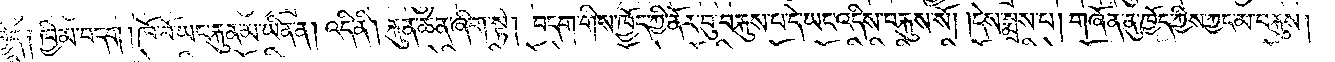བྱེད༑ ཁྱིམ་བདག །ཁོ་བོ་ཡང་རྐུན་མ་ཡིན་ན། འདི་ནི། རྐུན་ཆེན་ཞིག་སྟེ། བདག་གིས་ཁྱོད་ཀྱི་ནོར་བུ་བརྐུས་པ་དེ་ཡང་འདིས་བརྐུས་སོ། །དེས་སྨྲས་པ། གཞོན་ནུ་ཁྱོད་ཀྱིས་ཀྱང་མ་བརྐུས།
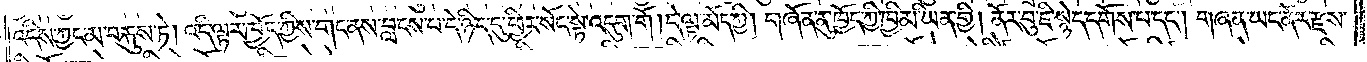འདིས་ཀྱང་མ་བརྐུས་ཏེ། འདི་ལྟར་ཁྱོད་ཀྱིས་གང་ནས་བླངས་པ་དེ་ཉིད་དུ་ཕྱིར་སོང་སྟེ་འདུག་གོ །དེ་ལྟ་མོད་ཀྱི། གཞོན་ནུ་ཁྱོད་ཀྱི་ཁྱིམ་ཡིན་གྱི། ནོར་བུ་ཇེ་སྙེད་དགོས་པ་དང༌། གཞན་ཡང་ནོར་རྫས་
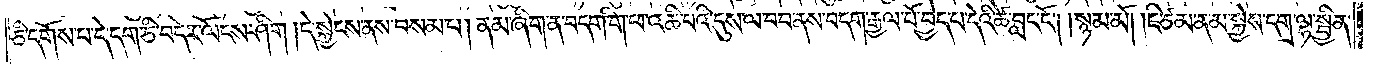ཅི་དགོས་པ་དེ་དག་ཅི་བདེར་ལོངས་ཤིག །དེ་སྐྱེངས་ནས་བསམ་པ། ནམ་ཞིག་ན་བདག་གི་ཕ་འཆི་བའི་དུས་ལ་བབ་ནས་བདག་རྒྱལ་པོ་བྱེད་པ་དེའི་ཚེ་བླང་ངོ༌། །སྙམ་མོ། །ཇི་ཙམ་ན་མ་སྐྱེས་དགྲ་ལྷ་སྦྱིན་
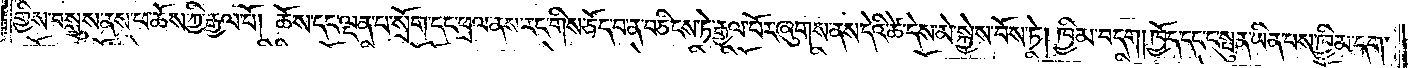གྱིས་བསླུས་ནས་ཕ་ཆོས་ཀྱི་རྒྱལ་པོ། ཆོས་དང་ལྡན་པ་སྲོག་དང་ཕྲལ་ནས་རང་གིས་ཅོད་བ་ན་བཅིངས་ཏེ་རྒྱལ་པོར་ཞུགས་ནས་དེའི་ཚེ་དེས་མེ་སྐྱེས་བོས་ཏེ། ཁྱིམ་བདག། ཁྱོད་དང་ང་སྤུན་ཡིན་པས་ཁྱིམ་དག་
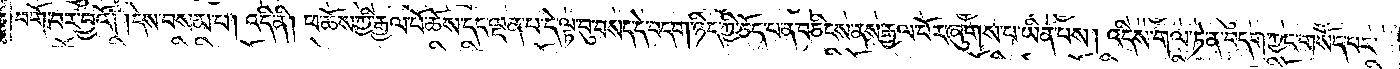བགོ་བར་བྱའོ། །དེས་བསམ་པ། འདི་ནི། ཕ་ཆོས་ཀྱི་རྒྱལ་པོ་ཆོས་དང་ལྡན་པ་དེ་ལྟ་བུ་བསད་དེ་བདག་ཉིད་ཀྱི་ཅོད་པ་ན་བཅིངས་ནས་རྒྱལ་པོར་ཞུགས་པ་ཡིན་པས། འདིས་གལ་ཏེ་ན་བདག་ཀྱང་གསོད་པར་
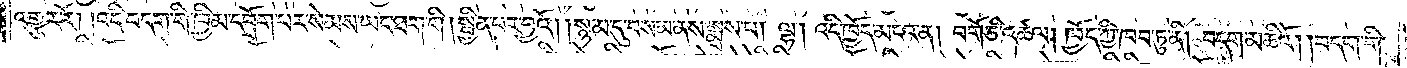འགྱུར་རོ། །འདི་བདག་གི་ཁྱིམ་དབྲོག་པར་སེམས་ཡང་ཐག་གི། སྦྱིན་པར་བྱའོ། །སྙམ་དུ་བསམ་ནས་སྨྲས་པ། ལྷ། འདི་ཁྱོད་མངའ་ན། བགོ་ཅི་འཚལ། ཁྱོད་ཀྱི་ཁབ་ཏུ་ནི། བདག་མཆིའོ། །བདག་གི་
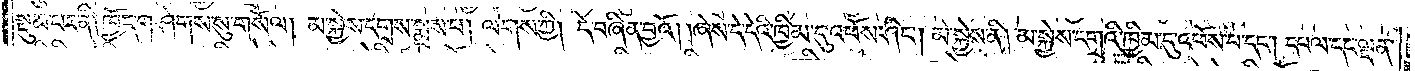སྡུམ་པར་ནི། ཁྱོད་གཤེགས་སུ་གསོལ། མ་སྐྱེས་དགྲས་སྨྲས་པ། ལེགས་ཀྱི། དེ་བཞིན་བྱའོ། །ཞེས་དེ་དེའི་ཁྱིམ་དུ་འཕོས་ཤིང༌། མེ་སྐྱེས་ནི། མ་སྐྱེས་དགྲའི་ཁྱིམ་དུ་འཕོས་པ་དང༌། དཔལ་དང་ལྡན་
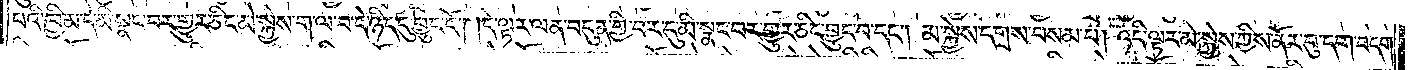པའི་ཁྱིམ་དེ་མི་སྣང་བར་གྱུར་ཅིང་མེ་སྐྱེས་ག་ལ་བ་དེ་ཉིད་དུ་བྱུང་ངོ༌། །དེ་ལྟར་ལན་བདུན་གྱི་བར་དུ་མི་སྣང་བར་གྱུར་ཅིང་བྱུང་བ་དང༌། མ་སྐྱེས་དགྲས་བསམ་པ། འདི་ལྟར་མེ་སྐྱེས་ཀྱིས་ནོར་བུ་དག་བདག་
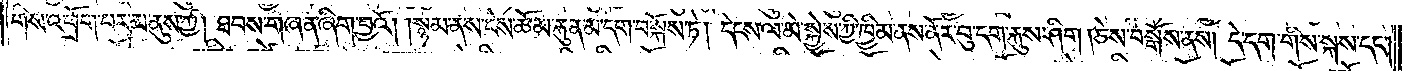གིས་འཕྲོག་པར་མ་ནུས་ཀྱི། ཐབས་གཞན་ཞིག་བྱའོ། །སྙམ་ནས་ངེས་ཆོམ་རྐུན་མ་དག་བསྐོས་ཏེ། དེངས་ལ་མེ་སྐྱེས་ཀྱི་ཁྱིམ་ནས་ནོར་བུ་དག་རྐུས་ཤིག །ཅེས་བསྒོས་ནས། དེ་དག་གིས་སྐས་དང༌།
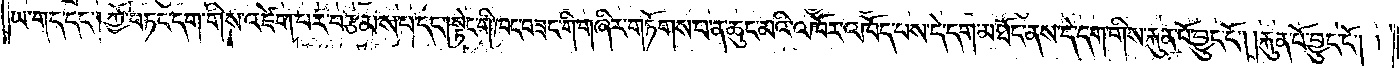ཡ་གད་དང༌། ཀྱོ་བཏང་དག་གིས་འཛེག་པར་བརྩམས་པ་དང༌། སྟེང་གི་ཁང་བཟང་གི་གཞིར་གཏོགས་པ་ན་ཆུང་མའི་འཁོར་འཁོད་པས་དེ་དག་མཐོང་ནས་དེ་དག་གིས་རྐུན་པོ་བྱུང་ངོ༌། །རྐུན་པོ་བྱུང་ངོ༌། །
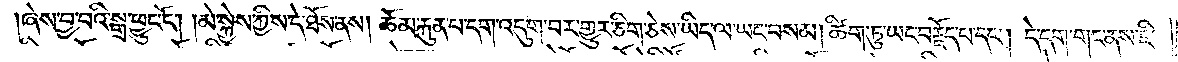ཞེས་བྱ་བའི་སྒྲ་ཕྱུང་ངོ༌། །མེ་སྐྱེས་ཀྱིས་དེ་ཐོས་ནས། ཆོམ་རྐུན་པ་དག་འདུག་པར་གྱུར་ཅིག་ཅེས་ཡིད་ལ་ཡང་བསམ། ཚིག་ཏུ་ཡང་བརྗོད་པ་དང༌། དེ་དག་གང་ནས་ཇི་
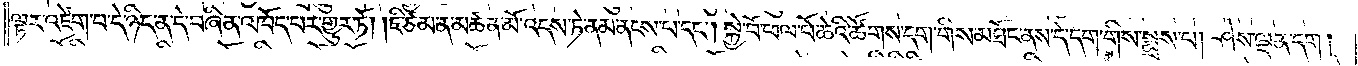ལྟར་འཛེག་པ་དེ་ཉིད་ན་དེ་བཞིན་འཁོད་པར་གྱུར་ཏོ། །ཇི་ཙམ་ན་མཚན་མོ་འདས་ཏེ་ནམ་ནངས་པ་དང༌། སྐྱེ་བོ་ཕལ་པོ་ཆེའི་ཚོགས་དག་གིས་མཐོང་ནས་དེ་དག་གིས་སྨྲས་པ། ཤེས་ལྡན་དག །
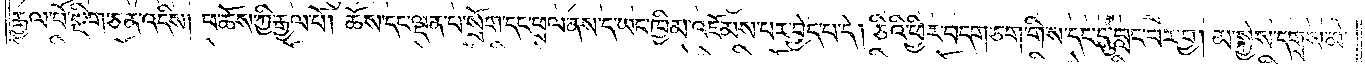རྒྱལ་པོ་སྡིག་ཅན་འདིས། ཕ་ཆོས་ཀྱི་རྒྱལ་པོ། ཆོས་དང་ལྡན་པ་སྲོག་དང་ཕྲལ་ནས་དེ་ཡང་ཁྱིམ་འཇོམས་པར་བྱེད་པ་དེ། ཅིའི་ཕྱིར་བདག་ཅག་གིས་དང་དུ་བླང་བར་བྱ། མ་སྐྱེས་དགྲས་མེ་
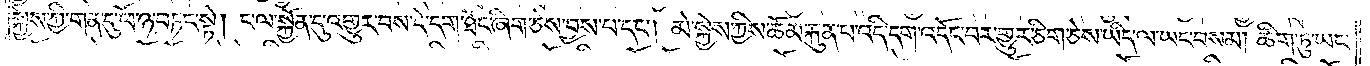སྐྱེས་ཀྱི་གན་དུ་ཕོ་ཉ་བཏང་སྟེ། ང་ལ་སྐྱོན་དུ་འགྱུར་བས་དེ་དག་ཐོང་ཞིག་ཅེས་བྱས་པ་དང༌། མེ་སྐྱེས་ཀྱིས་ཆོམ་རྐུན་པ་འདི་དག་འདོང་བར་གྱུར་ཅིག་ཅེས་ཡིད་ལ་ཡང་བསམ། ཚིག་ཏུ་ཡང་
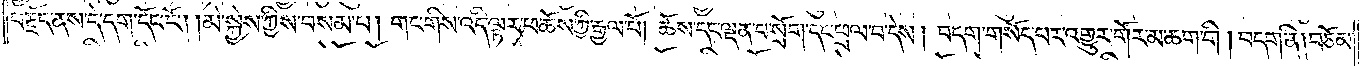བརྗོད་ནས་དེ་དག་དོང་ངོ༌། །མེ་སྐྱེས་ཀྱིས་བསམ་པ། གང་གིས་འདི་ལྟར་ཕ་ཆོས་ཀྱི་རྒྱལ་པོ། ཆོས་དང་ལྡན་པ་སྲོག་དང་ཕྲལ་བ་དེས། བདག་གསོད་པར་འགྱུར་གོར་མ་ཆག་གི། །བདག་ནི། བཅོམ་
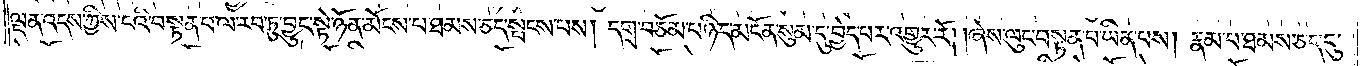ལྡན་འདས་ཀྱིས་ངའི་བསྟན་པ་ལ་རབ་ཏུ་བྱུང་སྟེ་ཉོན་མོངས་པ་ཐམས་ཅད་སྤངས་པས། དགྲ་བཅོམ་པ་ཉིད་མངོན་སུམ་དུ་བྱེད་པར་འགྱུར་རོ། །ཞེས་ལུང་བསྟན་པ་ཡིན་པས། རྣམ་པ་ཐམས་ཅད་དུ་
